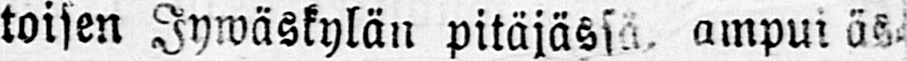toisen Jywäskylän pitäjässä, ampui äs-
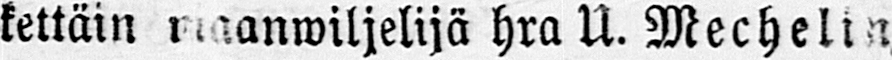kettäin maanwiljelijä hra U. Mechelin
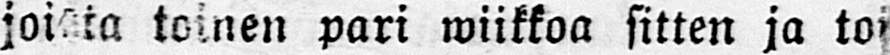joista toinen pari wiikkoa sitten ja toi
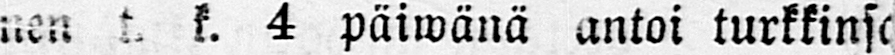nen t. k. 4 päiwänä antoi turkkinsa
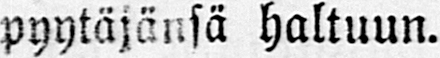pyytäjänsä haltuun.
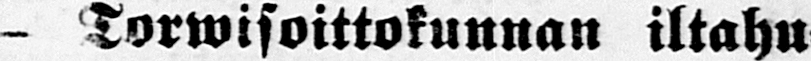- Torwisoittokunnan iltahu-
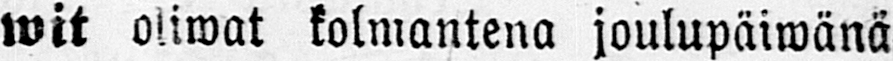wit oliwat kolmantena joulupäiwänä
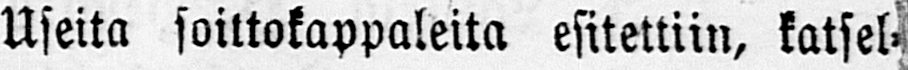Useita soittokappaleita esitettiin, katsel-
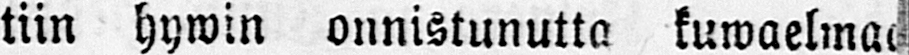tiin hywin onnistunutta kuwaelmaa
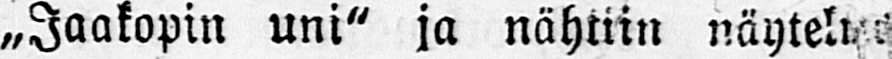„Jaakopin uni" ja nähtiin näytelmä
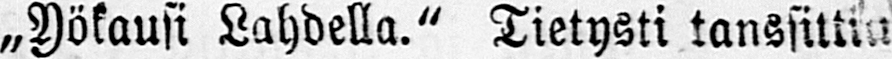„Yökausi Lahdella." Tietysti tanssittia
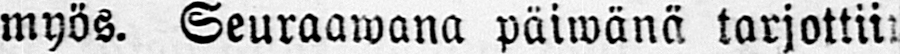myös. Seuraawana päiwänä tarjottiin
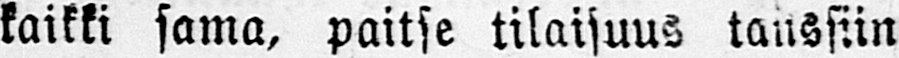kaikki sama, paitse tilaisuus tanssiin
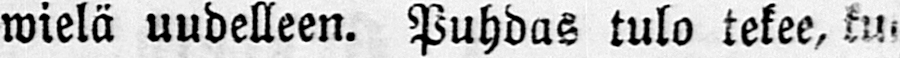wielä uudelleen. Puhdas tulo tekee, kun
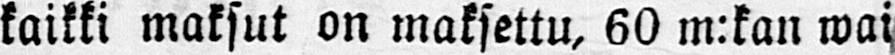kaikki maksut on maksettu, 60 m:kan wai
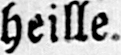heille.
